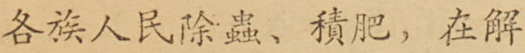各族人民除蟲、積肥，在解
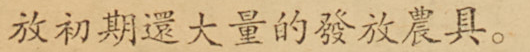放初期還大量的發放農具。
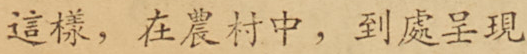這樣，在農村中，到處呈現
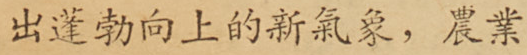出蓬勃向上的新氣象，農業
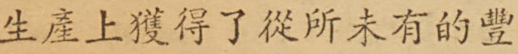生產上獲得了從所未有的豐
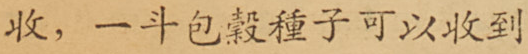收，一斗包穀種子可以收到
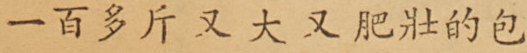一百多斤又大又肥壯的包
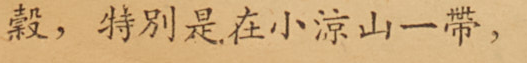穀，特別是在小涼山一帶，
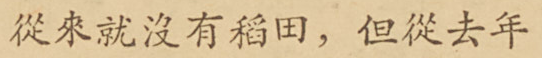從來就沒有稻田，但從去年
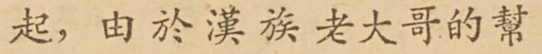起，由於漢族老大哥的幫
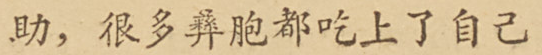助，很多彝胞都吃上了自己
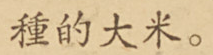種的大米。
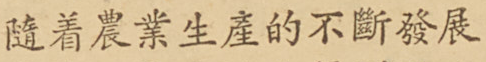隨着農業生產的不斷發展
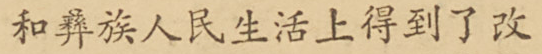和彝族人民生活上得到了改
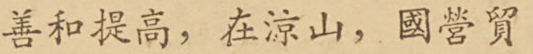善和提高，在涼山，國營貿
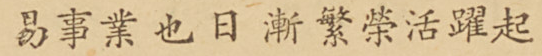易事業也日漸繁榮活躍起
